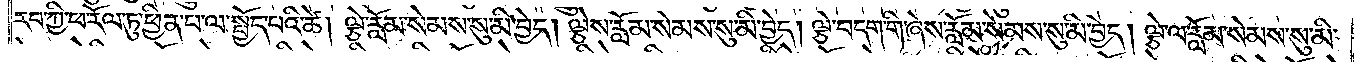རབ་ཀྱི་ཕ་རོལ་ཏུ་ཕྱིན་པ་ལ་སྤྱོད་པའི་ཚེ། ལྕེ་རློམ་སེམས་སུ་མི་བྱེད། ལྕེས་རློམ་སེམས་སུ་མི་བྱེད། ལྕེ་བདག་གི་ཞེས་རློམ་སེམས་སུ་མི་བྱེད། ལྕེ་ལ་རློམ་སེམས་སུ་མི་
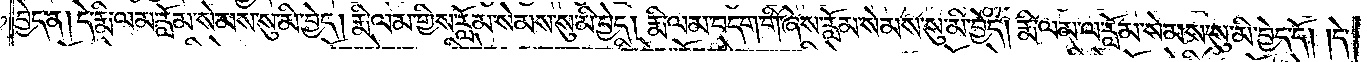བྱེད་ན། དེ་རྨི་ལམ་རློམ་སེམས་སུ་མི་བྱེད། རྨི་ལམ་གྱིས་རློམ་སེམས་སུ་མི་བྱེད། རྨི་ལམ་བདག་གི་ཞེས་རློམ་སེམས་སུ་མི་བྱེད། རྨི་ལམ་ལ་རློམ་སེམས་སུ་མི་བྱེད་དོ། །དེ་
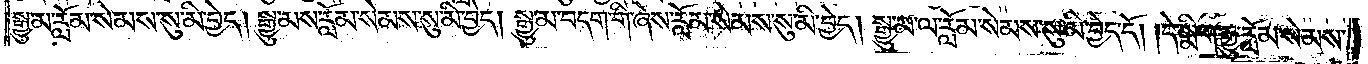སྒྱུ་མ་རློམ་སེམས་སུ་མི་བྱེད། སྒྱུ་མས་རློམ་སེམས་སུ་མི་བྱེད། སྒྱུ་མ་བདག་གི་ཞེས་རློམ་སེམས་སུ་མི་བྱེད། སྒྱུ་མ་ལ་རློམ་སེམས་སུ་མི་བྱེད་དོ། །དེ་སྨིག་རྒྱུ་རློམ་སེམས་
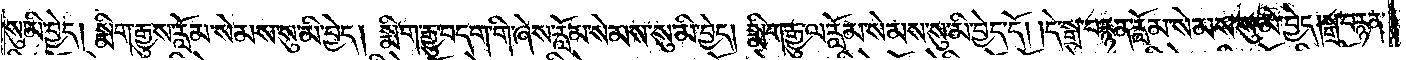སུ་མི་བྱེད། སྨིག་རྒྱུས་རློམ་སེམས་སུ་མི་བྱེད། སྨིག་རྒྱུ་བདག་གི་ཞེས་རློམ་སེམས་སུ་མི་བྱེད། སྨིག་རྒྱུ་ལ་རློམ་སེམས་སུ་མི་བྱེད་དོ། །དེ་སྒྲ་བརྙན་རློམ་སེམས་སུ་མི་བྱེད། སྒྲ་བརྙན་
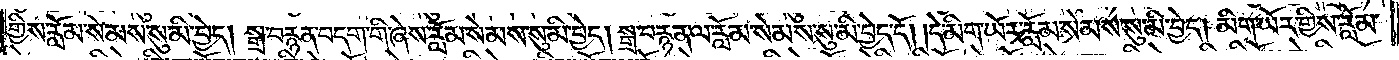གྱིས་རློམ་སེམས་སུ་མི་བྱེད། སྒྲ་བརྙན་བདག་གི་ཞེས་རློམ་སེམས་སུ་མི་བྱེད། སྒྲ་བརྙན་ལ་རློམ་སེམས་སུ་མི་བྱེད་དོ། །དེ་མིག་ཡོར་རློམ་སེམས་སུ་མི་བྱེད། མིག་ཡོར་གྱིས་རློམ་
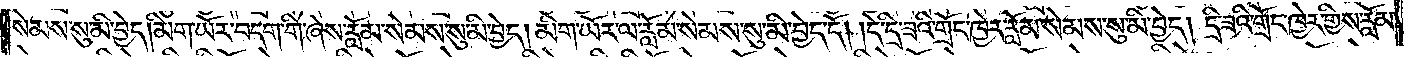སེམས་སུ་མི་བྱེད། མིག་ཡོར་བདག་གི་ཞེས་རློམ་སེམས་སུ་མི་བྱེད། མིག་ཡོར་ལ་རློམ་སེམས་སུ་མི་བྱེད་དོ། །དེ་དྲི་ཟའི་གྲོང་ཁྱེར་རློམ་སེམས་སུ་མི་བྱེད། དྲི་ཟའི་གྲོང་ཁྱེར་གྱིས་རློམ་
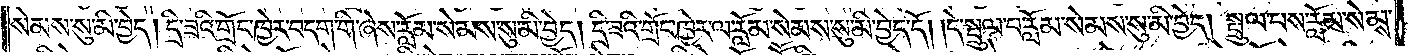སེམས་སུ་མི་བྱེད། དྲི་ཟའི་གྲོང་ཁྱེར་བདག་གི་ཞེས་རློམ་སེམས་སུ་མི་བྱེད། དྲི་ཟའི་གྲོང་ཁྱེར་ལ་རློམ་སེམས་སུ་མི་བྱེད་དོ། །དེ་སྤྲུལ་པ་རློམ་སེམས་སུ་མི་བྱེད། སྤྲུལ་པས་རློམ་སེམས་
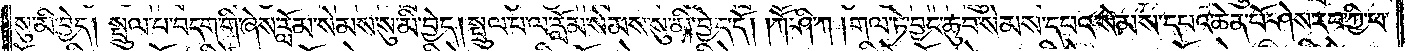སུ་མི་བྱེད། སྤྲུལ་པ་བདག་གི་ཞེས་རློམ་སེམས་སུ་མི་བྱེད། སྤྲུལ་པ་ལ་རློམ་སེམས་སུ་མི་བྱེད་དོ། །ཀཽ་ཤི་ཀ། གལ་ཏེ་བྱང་ཆུབ་སེམས་དཔའ་སེམས་དཔའ་ཆེན་པོ་ཤེས་རབ་ཀྱི་ཕ་
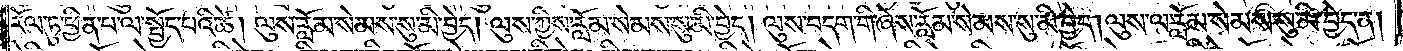རོལ་ཏུ་ཕྱིན་པ་ལ་སྤྱོད་པའི་ཚེ། ལུས་རློམ་སེམས་སུ་མི་བྱེད། ལུས་ཀྱིས་རློམ་སེམས་སུ་མི་བྱེད། ལུས་བདག་གི་ཞེས་རློམ་སེམས་སུ་མི་བྱེད། ལུས་ལ་རློམ་སེམས་སུ་མི་བྱེད་ན།
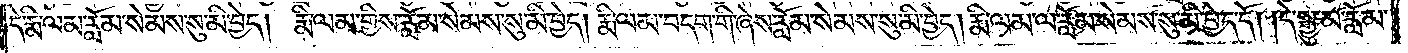དེ་རྨི་ལམ་རློམ་སེམས་སུ་མི་བྱེད། རྨི་ལམ་གྱིས་རློམ་སེམས་སུ་མི་བྱེད། རྨི་ལམ་བདག་གི་ཞེས་རློམ་སེམས་སུ་མི་བྱེད། རྨི་ལམ་ལ་རློམ་སེམས་སུ་མི་བྱེད་དོ། །དེ་སྒྱུ་མ་རློམ་
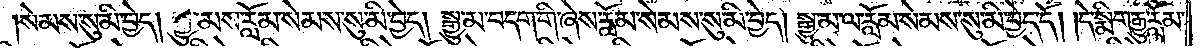སེམས་སུ་མི་བྱེད། སྒྱུ་མས་རློམ་སེམས་སུ་མི་བྱེད། སྒྱུ་མ་བདག་གི་ཞེས་རློམ་སེམས་སུ་མི་བྱེད། སྒྱུ་མ་ལ་རློམ་སེམས་སུ་མི་བྱེད་དོ། །དེ་སྨིག་རྒྱུ་རློམ་
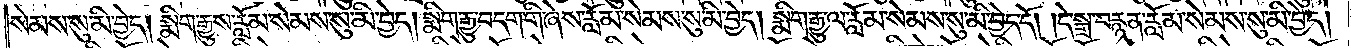སེམས་སུ་མི་བྱེད། སྨིག་རྒྱུས་རློམ་སེམས་སུ་མི་བྱེད། སྨིག་རྒྱུ་བདག་གི་ཞེས་རློམ་སེམས་སུ་མི་བྱེད། སྨིག་རྒྱུ་ལ་རློམ་སེམས་སུ་མ་བྱེད་དོ། །དེ་སྒྲ་བརྙན་རློམ་སེམས་སུ་མི་བྱེད།
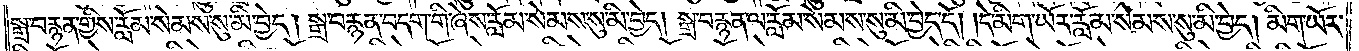སྒྲ་བརྙན་གྱིས་རློམ་སེམས་སུ་མི་བྱེད། སྒྲ་བརྙན་བདག་གི་ཞེས་རློམ་སེམས་སུ་མི་བྱེད། སྒྲ་བརྙན་ལ་རློམ་སེམས་སུ་མི་བྱེད་དོ། །དེ་མིག་ཡོར་རློམ་སེམས་སུ་མི་བྱེད། མིག་ཡོར་
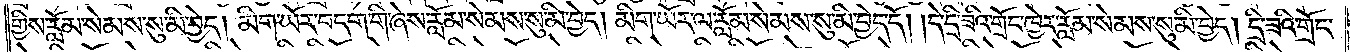གྱིས་རློམ་སེམས་སུ་མི་བྱེད། མིག་ཡོར་བདག་གི་ཞེས་རློམ་སེམས་སུ་མི་བྱེད། མིག་ཡོར་ལ་རློམ་སེམས་སུ་མི་བྱེད་དོ། །དེ་དྲི་ཟའི་གྲོང་ཁྱེར་རློམ་སེམས་སུ་མི་བྱེད། དྲི་ཟའི་གྲོང་
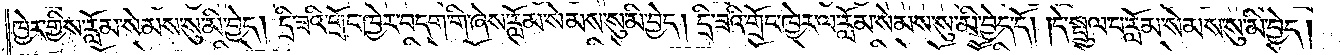ཁྱེར་གྱིས་རློམ་སེམས་སུ་མི་བྱེད། དྲི་ཟའི་གྲོང་ཁྱེར་བདག་གི་ཞེས་རློམ་སེམས་སུ་མི་བྱེད། དྲི་ཟའི་གྲོང་ཁྱེར་ལ་རློམ་སེམས་སུ་མི་བྱེད་དོ། །དེ་སྤྲུལ་པ་རློམ་སེམས་སུ་མི་བྱེད།
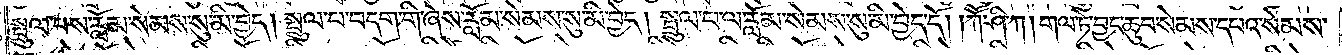སྤྲུལ་པས་རློམ་སེམས་སུ་མི་བྱེད། སྤྲུལ་པ་བདག་གི་ཞེས་རློམ་སེམས་སུ་མི་བྱེད། སྤྲུལ་པ་ལ་རློམ་སེམས་སུ་མི་བྱེད་དོ། །ཀཽ་ཤི་ཀ། གལ་ཏེ་བྱང་ཆུབ་སེམས་དཔའ་སེམས་
